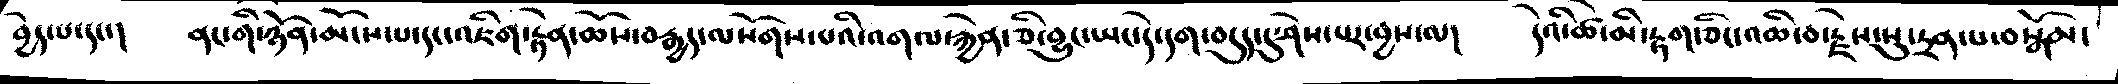བྱེད་པ་དང་།   ནང་གི་ཉོན་མོངས་པ་དང་འཇིག་རྟེན་ཆོས་བརྒྱད་ལསོགས་པའི་འགལ་རྐྱེན་ཅི་བྱུང་ཡང་དེ་དག་བདུད་དུ་ཤེས་པར་བྱས་ལ།    དེའི་ཚེ་མི་རྟག་ཅིང་འཆི་བ་རྗེས་སུ་དྲན་པ་བསྒོམ།
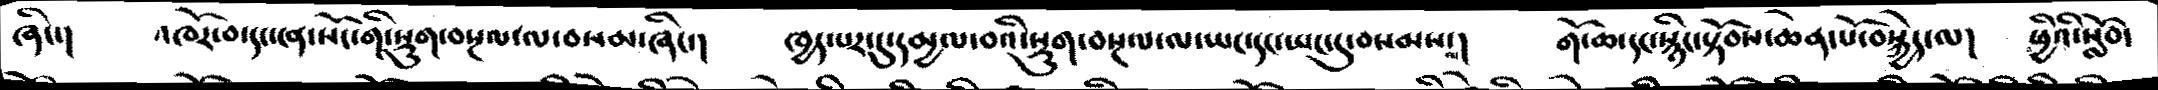ཞིང་།    འཁོར་བ་དང་ངན་སོང་གི་སྡུག་བསྔལ་ལ་བསམ་ཞིང་།    ཁྱད་པར་དུ་དམྱལ་བའི་སྡུག་བསྔལ་ལ་ཡང་དང་ཡང་དུ་བསམས་ལ།   གོ་ཆ་དང་སྙིང་སྟོབས་ཆེན་པོ་བསྐྱེད་ལ།  ཕྱིའི་སློབ་
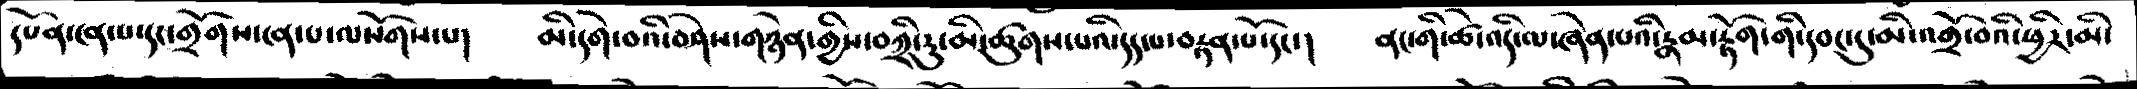དཔོན་ངན་པ་དང་གྲོགས་ངན་པ་ལསོགས་པ།   མི་དགེ་བའི་བཤེས་གཉེན་གྱིས་བཀྲི་རུ་མི་ཚུགས་པའི་དད་པ་བརྟན་པོ་དང་།   ནང་གི་ཚེ་འདི་ལ་ཞེན་པའི་རྣམ་རྟོག་གི་དབང་དུ་མི་འགྲོ་བའི་ཕྱིར་མི་
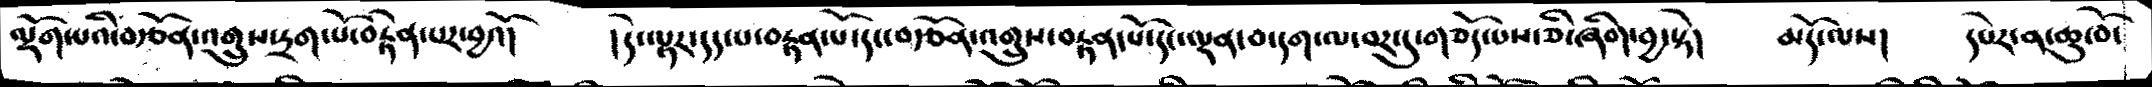ལྡོག་པའི་བརྩོན་འགྲུས་དྲག་པོ་བརྟེན་པར་བྱའོ།   །དེ་ལྟར་དད་པ་བརྟན་པོ་དང་བརྩོན་འགྲུས་བརྟན་པོ་དང་ལྡན་བ་དག་ལ་བར་དུ་གཅོད་པས་ཅི་ཞིག་བྱ་སྟེ།   མདོ་ལས།   དཔེར་ན་ཆུ་བོ་
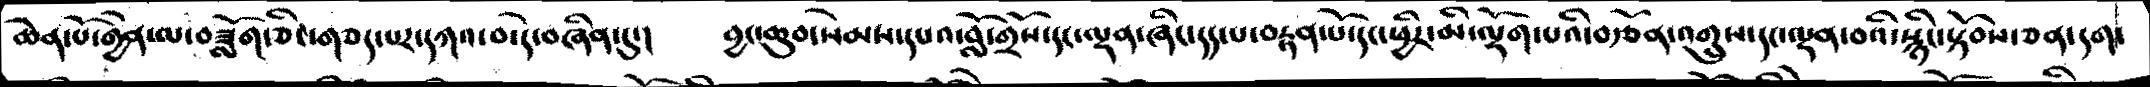ཆེན་པོ་གྱེན་ལ་བཟློག་ཅིང་གཅད་པར་དཀའ་བ་དེ་བཞིན་དུ་།   བྱང་ཆུབ་སེམས་དཔའ་བློ་གྲོས་དང་ལྡན་ཞིང་དད་པ་བརྟན་པོ་དང་ཕྱིར་མི་ལྡོག་པའི་བརྩོན་འགྲུས་དང་ལྡན་བའི་སྙིང་སྟོབས་ཅན་དག་
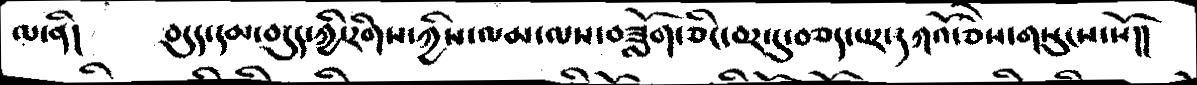ལ་ནི།    བདུད་དམ་བདུད་ཀྱི་རིགས་ཀྱིས་ལམ་ལས་བཟློག་ཅིང་བར་དུ་བཅད་པར་དཀའོ་ཅེས་གསུངས་སོ།།
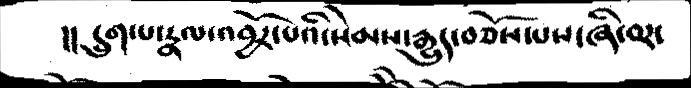།། དྲུག་པ་རྣལ་འབྱོར་པའི་སེམས་རྒྱུད་བཅོས་པས་ཞི་བར་
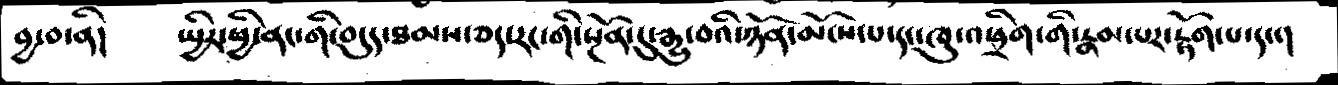བྱ་བ་ནི།     སྤྱིར་ཕྱི་ནང་གི་བདུད་ཐམས་ཅད་རང་གི་སྔོན་དུ་རྒྱུ་བའི་ཉོན་མོངས་པ་དང་ཁུ་འཕྲིག་གི་རྣམ་པར་རྟོག་པ་དང་།
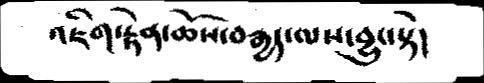འཇིག་རྟེན་ཆོས་བརྒྱད་ལས་བྱུང་སྟེ།
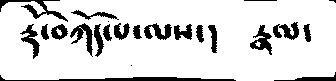རྡོེ་བཀོད་པ་ལས་།     རྣལ་
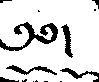༄༅།
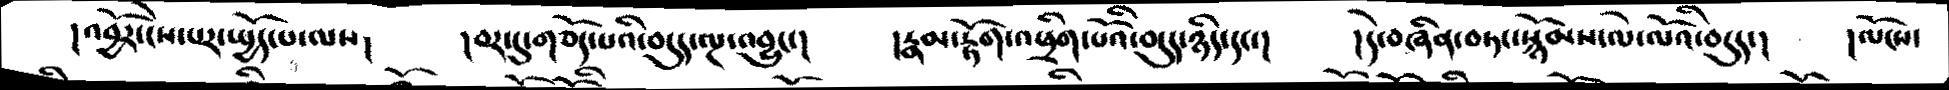།འབྱོར་ངེས་པར་སྤྱོད་པ་ལས།    །བར་དུ་གཅོད་པའི་བདུད་ལྔ་འབྱུང་།     །རྣམ་རྟོག་འཕྲིག་པོའི་བདུད་ཉིད་དང་།    །དེ་བཞིན་བཏང་སྙོམས་ལེ་ལོའི་བདུད་།     །ལོངས་
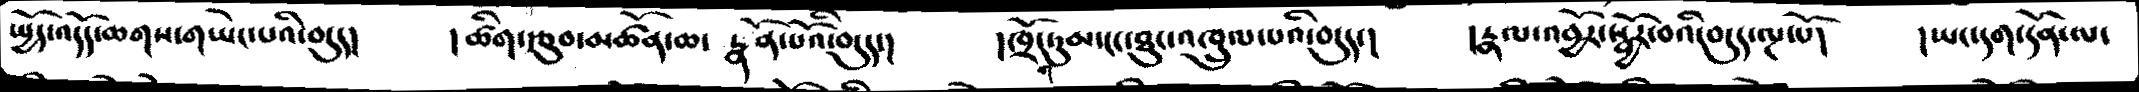སྤྱོད་འདོད་ཆགས་གཡེང་པའི་བདུད་།   །ཚིག་རྩུབ་མཚོན་ཆ་ རྣོན་པོའི་བདུད་།   །ཁྲོ་གཏུམ་ངང་ཐུང་འཁྲུལ་པའི་བདུད་།   །རྣལ་འབྱོར་སྦྱོར་བའི་བདུད་ལྔ་པོ།   །ཡང་དག་དོན་ལ་
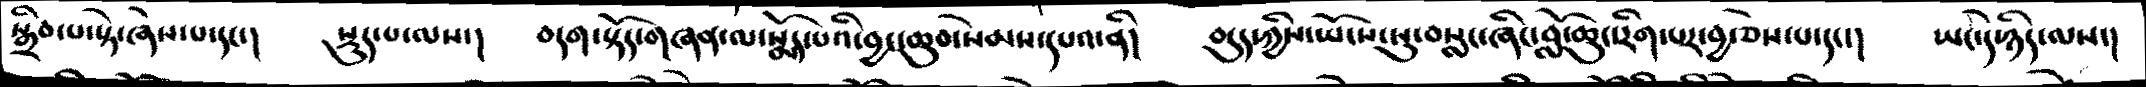སྒྲིབ་པ་སྟེ་ཞེས་པ་དང་།   སྡུད་པ་ལས་།    བདག་སྟོད་གཞན་ལ་སྨོད་པའི་བྱང་ཆུབ་སེམས་དཔའ་ནི།    བདུད་ཀྱིས་ཡོངས་སུ་བསླང་ཞིང་བློ་ཆུང་རིག་པར་བྱ་ཅེས་པ་དང་།    ཡང་དེ་ཉིད་ལས་།
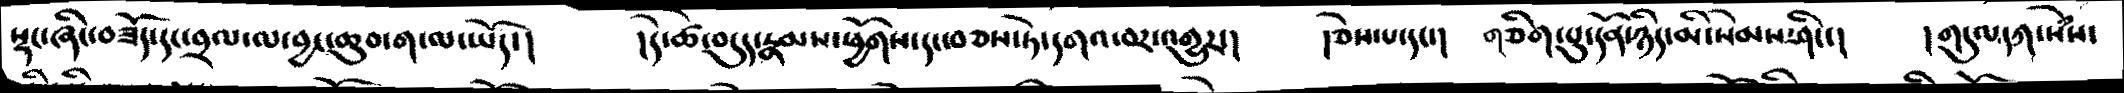སྡང་ཞིང་བཟོད་དང་བྲལ་ལ་བྱང་ཆུབ་ག་ལ་ཡོད་།    །དེ་ཚེ་བདུད་རྣམས་ཕྱོགས་དང་བཅས་ཏེ་དགའ་བར་འགྱུར་།    །ཅེས་པ་དང་།    གཅིག་པུ་དོན་ཉིད་མི་སེམས་ཤིང་།   །གདུལ་དཀ་སེཾས་
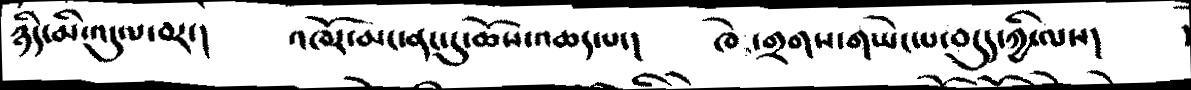ཉིད་མི་འདུལ་བར་།     འཁོར་མང་ནང་དུ་ཆོས་འཆད་པ་།      ཁེ ་གྲགས་གཡེང་པ་བདུད་ཀྱི་ལས།
